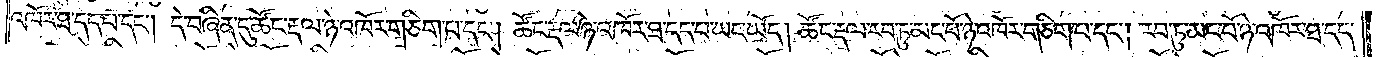འཁོར་ཐ་དད་པ། དེ་བཞིན་དུ་ཚོང་རྡལ་ཉེ་འཁོར་གཅིག་པ་དང༌། ཚོང་རྡལ་ཉེ་འཁོར་ཐ་དད་པ་ཡང་ཡོད། ཚོང་རྡལ་རབ་ཏུ་མང་པོ་ཉེ་འཁོར་གཅིག་པ་དང༌། རབ་ཏུ་མང་པོ་ཉེ་འཁོར་ཐ་དད་
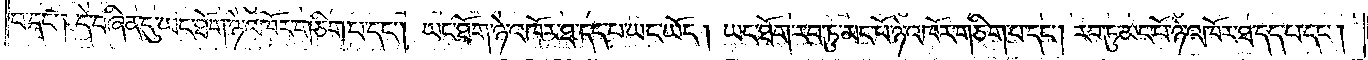པ་དང༌། དེ་བཞིན་དུ་ཡང་ཐོག་ཉེ་འཁོར་གཅིག་པ་དང༌། ཡང་ཐོག་ཉེ་འཁོར་ཐ་དད་པ་ཡང་ཡོད། ཡང་ཐོག་རབ་ཏུ་མང་པོ་ཉེ་འཁོར་གཅིག་པ་དང༌། རབ་ཏུ་མང་པོ་ཉེ་འཁོར་ཐ་དད་པ་དང༌།
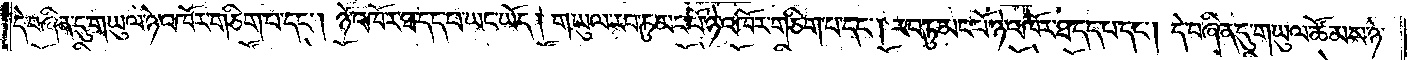དེ་བཞིན་དུ་གཡུལ་ཉེ་འཁོར་གཅིག་པ་དང༌། ཉེ་འཁོར་ཐ་དད་པ་ཡང་ཡོད། གཡུལ་རབ་ཏུ་མང་པོ་ཉེ་འཁོར་གཅིག་པ་དང༌། རབ་ཏུ་མང་པོ་ཉེ་འཁོར་ཐ་དད་པ་དང༌། དེ་བཞིན་དུ་གཡུལ་ཚོམས་ཉེ་
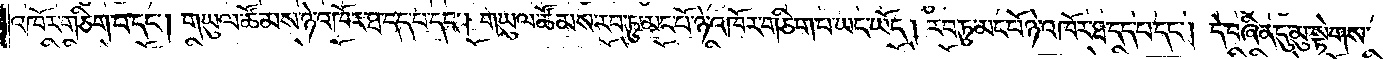འཁོར་གཅིག་པ་དང༌། གཡུལ་ཚོམས་ཉེ་འཁོར་ཐ་དད་པ་དང༌། གཡུལ་ཚོམས་རབ་ཏུ་མང་པོ་ཉེ་འཁོར་གཅིག་པ་ཡང་ཡོད། རབ་ཏུ་མང་པོ་ཉེ་འཁོར་ཐ་དད་པ་དང༌། དེ་བཞིན་དུ་མུ་སྟེགས་
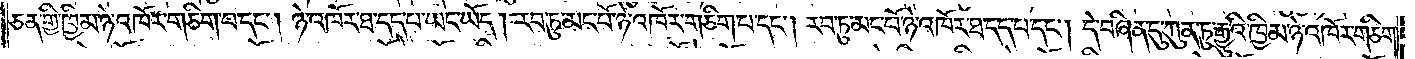ཅན་གྱི་ཁྱིམ་ཉེ་འཁོར་གཅིག་པ་དང༌། ཉེ་འཁོར་ཐ་དད་པ་ཡང་ཡོད། རབ་ཏུ་མང་པོ་ཉེ་འཁོར་གཅིག་པ་དང༌། རབ་ཏུ་མང་པོ་ཉེ་འཁོར་ཐ་དད་པ་དང༌། དེ་བཞིན་དུ་ཀུན་ཏུ་རྒྱུའི་ཁྱིམ་ཉེ་འཁོར་གཅིག་
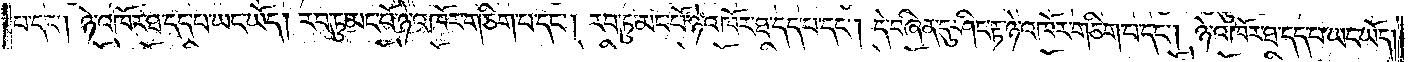པ་དང༌། ཉེ་འཁོར་ཐ་དད་པ་ཡང་ཡོད། རབ་ཏུ་མང་པོ་ཉེ་འཁོར་གཅིག་པ་དང༌། རབ་ཏུ་མང་པོ་ཉེ་འཁོར་ཐ་དད་པ་དང༌། དེ་བཞིན་དུ་ཤིང་རྟ་ཉེ་འཁོར་གཅིག་པ་དང༌། ཉེ་འཁོར་ཐ་དད་པ་ཡང་ཡོད།
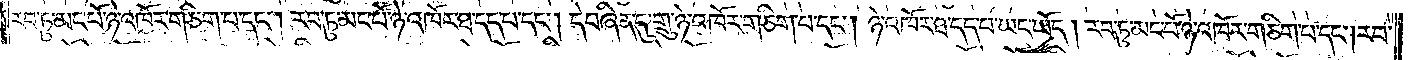རབ་ཏུ་མང་པོ་ཉེ་འཁོར་གཅིག་པ་དང༌། རབ་ཏུ་མང་པོ་ཉེ་འཁོར་ཐ་དད་པ་དང༌། དེ་བཞིན་དུ་གྲུ་ཉེ་འཁོར་གཅིག་པ་དང༌། ཉེ་འཁོར་ཐ་དད་པ་ཡང་ཡོད། རབ་ཏུ་མང་པོ་ཉེ་འཁོར་གཅིག་པ་དང༌། རབ་
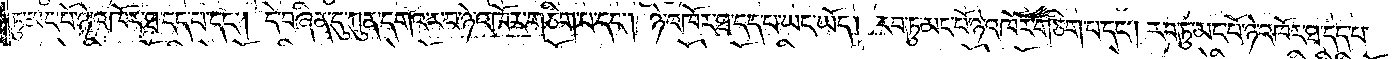ཏུ་མང་པོ་ཉེ་འཁོར་ཐ་དད་པ་དང༌། དེ་བཞིན་དུ་ཀུན་དགའ་ར་བ་ཉེ་འཁོར་གཅིག་པ་དང༌། ཉེ་འཁོར་ཐ་དད་པ་ཡང་ཡོད། རབ་ཏུ་མང་པོ་ཉེ་འཁོར་གཅིག་པ་དང༌། རབ་ཏུ་མང་པོ་ཉེ་འཁོར་ཐ་དད་པ་
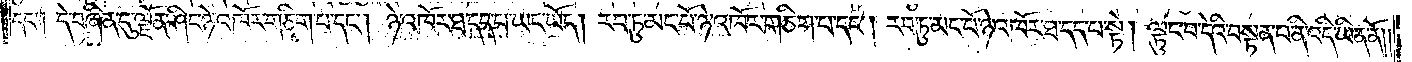དང༌། དེ་བཞིན་དུ་ལྗོན་ཤིང་ཉེ་འཁོར་གཅིག་པ་དང༌། ཉེ་འཁོར་ཐ་དད་པ་ཡང་ཡོད། རབ་ཏུ་མང་པོ་ཉེ་འཁོར་གཅིག་པ་དང༌། རབ་ཏུ་མང་པོ་ཉེ་འཁོར་ཐ་དད་པ་སྟེ། ལྟུང་བ་དེའི་བསྟན་པ་ནི་འདི་ཡིན་ནོ༎
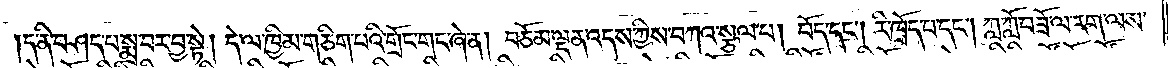ད་ནི་བཤད་པ་སྨྲ་བར་བྱ་སྟེ། དེ་ལ་ཁྱིམ་གཅིག་པའི་གྲོང་གང་ཞེ་ན། བཅོམ་ལྡན་འདས་ཀྱིས་བཀའ་སྩལ་པ། བོད་དང༌། རི་ཁྲོད་པ་དང༌། ཀླ་ཀློ་བཟོ་ལ་རག་ལས་
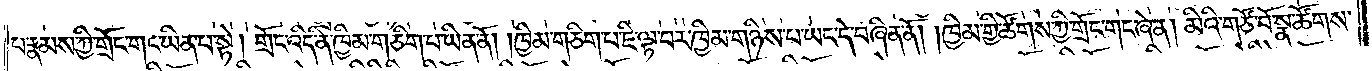པ་རྣམས་ཀྱི་གྲོང་གང་ཡིན་པ་སྟེ། གྲོང་འདི་ནི་ཁྱིམ་གཅིག་པ་ཡིན་ནོ། །ཁྱིམ་གཅིག་པ་ཇི་ལྟ་བར་ཁྱིམ་གཉིས་པ་ཡང་དེ་བཞིན་ནོ། །ཁྱིམ་གྱི་ཚོགས་ཀྱི་གྲོང་གང་ཞེ་ན། མིའི་གཙོ་བོ་སྣ་ཚོགས་
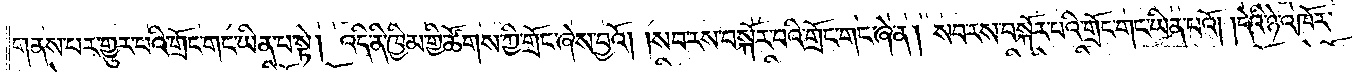གནས་པར་གྱུར་པའི་གྲོང་གང་ཡིན་པ་སྟེ། འདི་ནི་ཁྱིམ་གྱི་ཚོགས་ཀྱི་གྲོང་ཞེས་བྱའོ། །སབ་རས་བསྐོར་བའི་གྲོང་གང་ཞེ་ན། སབ་རས་བསྐོར་བའི་གྲོང་གང་ཡིན་པའོ། །དེའི་ཉེ་འཁོར་
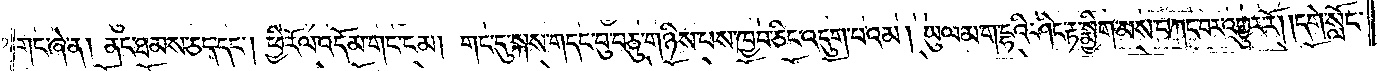གང་ཞེ་ན། ནང་ཐམས་ཅད་དང༌། ཕྱི་རོལ་འདོམ་གང་ངམ། གང་དུ་སྐས་གདང་བུ་བཅུ་གཉིས་པས་ཁྱབ་ཅིང་འདུག་པའམ། ཡུལ་མ་ག་དྷའི་ཤིང་རྟ་སྨྱིག་མས་བཀང་བར་འགྱུར་རོ། །དགེ་སློང་
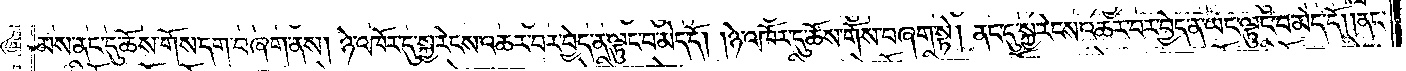མས་ནང་དུ་ཆོས་གོས་དག་བཞག་ནས། ཉེ་འཁོར་དུ་སྐྱ་རེངས་འཆར་བར་བྱེད་ན་ལྟུང་བ་མེད་དོ། །ཉེ་འཁོར་དུ་ཆོས་གོས་བཞག་སྟེ། ནང་དུ་སྐྱ་རེངས་འཆར་བར་བྱེད་ན་ཡང་ལྟུང་བ་མེད་དོ། །ནང་
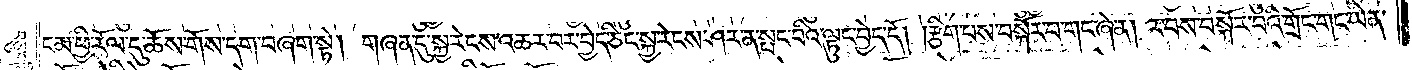ངམ་ཕྱི་རོལ་དུ་ཆོས་གོས་དག་བཞག་སྟེ། གཞན་དུ་སྐྱ་རེངས་འཆར་བར་བྱེད་ཅིང་སྐྱ་རེངས་ཤར་ན་སྤང་བའི་ལྟུང་བྱེད་དོ། །རྩིག་པས་བསྐོར་བ་གང་ཞེ་ན། ར་བས་བསྐོར་བའི་གྲོང་གང་ཡིན་
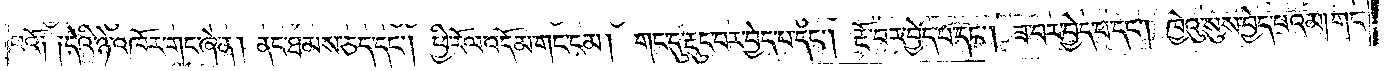པའོ༑ ༑དེའི་ཉེ་འཁོར་གང་ཞེ་ན། ནང་ཐམས་ཅད་དང༌། ཕྱི་རོལ་འདོམ་གང་ངམ། གང་དུ་རྡུང་བར་བྱེད་པ་དང༌། རྡོ་བར་བྱེད་པ་དང༌། ཟ་བར་བྱེད་པ་དང༌། ཁྱེའུ་སུས་བྱེད་པའམ། གང་
